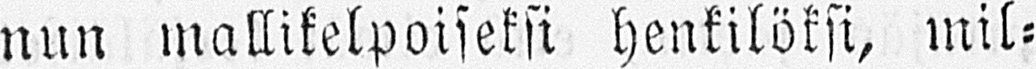nun mallikelpoiseksi henkilöksi, mil-
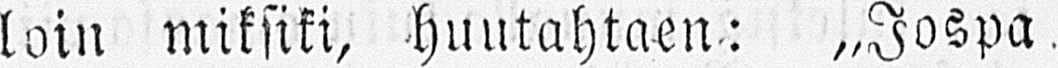loin miksiki, huutahtaen: „Jospa,
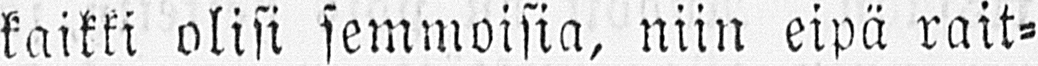kaikki olisi semmoisia, niin eipä rait-
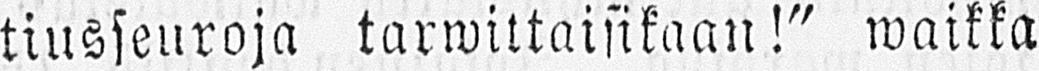tiusseuroja tarwittaisikaan!" waikka
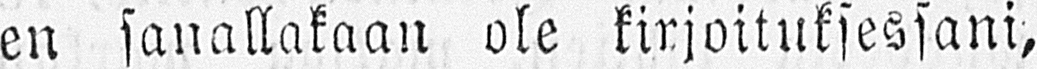en sanallakaan ole kirjoituksessani,
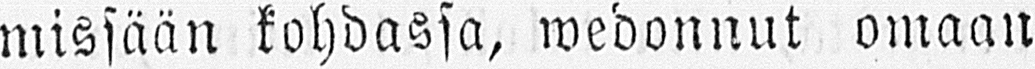missään kohdassa, wedonnut omaan
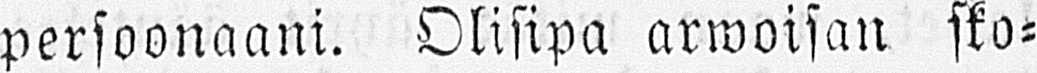persoonaani. Olisipa arwoisan sko-
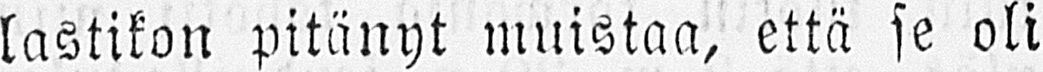lastikon pitänyt muistaa, että se oli
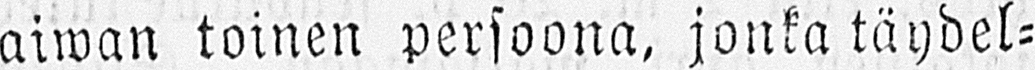aiwan toinen persoona, jonka täydel-
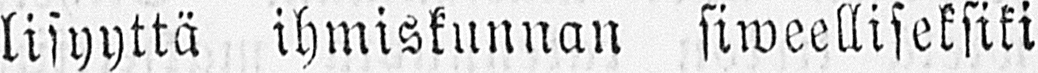lisyyttä ihmiskunnan siweelliseksiki
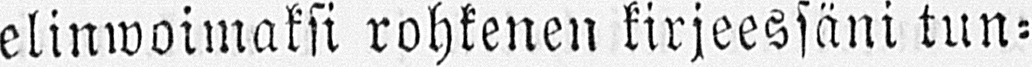elinwoimaksi rohkenen kirjeessäni tun-
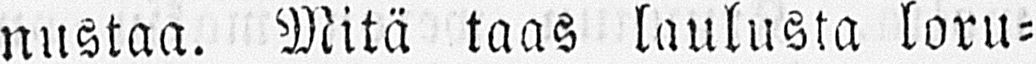nustaa. Mitä taas laulusta loru-
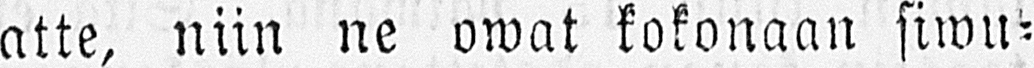atte, niin ne owat kokonaan siwu-
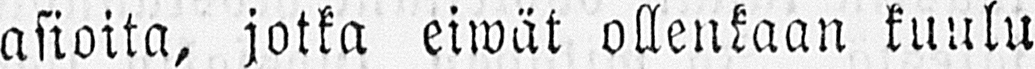asioita, jotka eiwät ollenkaan kuulu
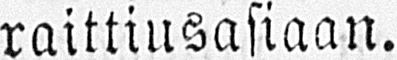raittiusasiaan.
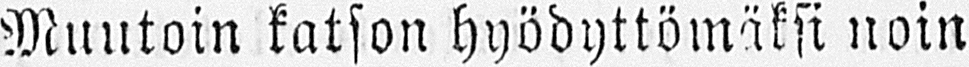Muutoin katson hyödyttömäksi noin
